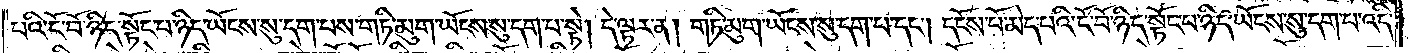པའི་ངོ་བོ་ཉིད་སྟོང་པ་ཉིད་ཡོངས་སུ་དག་པས་གཏི་མུག་ཡོངས་སུ་དག་པ་སྟེ། དེ་ལྟར་ན། གཏི་མུག་ཡོངས་སུ་དག་པ་དང༌། དངོས་པོ་མེད་པའི་ངོ་བོ་ཉིད་སྟོང་པ་ཉིད་ཡོངས་སུ་དག་པ་འདི་
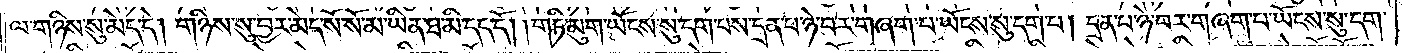ལ་གཉིས་སུ་མེད་དེ། གཉིས་སུ་བྱར་མེད་སོ་སོ་མ་ཡིན་ཐ་མི་དད་དོ། །གཏི་མུག་ཡོངས་སུ་དག་པས་དྲན་པ་ཉེ་བར་གཞག་པ་ཡོངས་སུ་དག་པ། དྲན་པ་ཉེ་བར་གཞག་པ་ཡོངས་སུ་དག་
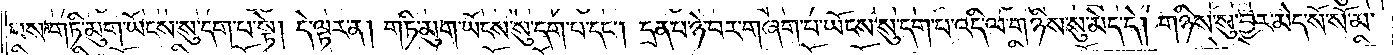པས་གཏི་མུག་ཡོངས་སུ་དག་པ་སྟེ། དེ་ལྟར་ན། གཏི་མུག་ཡོངས་སུ་དག་པ་དང༌། དྲན་པ་ཉེ་བར་གཞག་པ་ཡོངས་སུ་དག་པ་འདི་ལ་གཉིས་སུ་མེད་དེ། གཉིས་སུ་བྱར་མེད་སོ་སོ་མ་
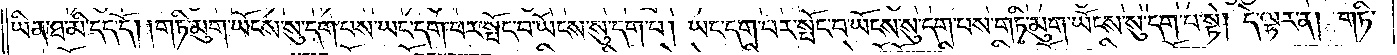ཡིན་ཐ་མི་དད་དོ། །གཏི་མུག་ཡོངས་སུ་དག་པས་ཡང་དག་པར་སྤང་བ་ཡོངས་སུ་དག་པ། ཡང་དག་པར་སྤོང་བ་ཡོངས་སུ་དག་པས་གཏི་མུག་ཡོངས་སུ་དག་པ་སྟེ། དེ་ལྟར་ན། གཏི་
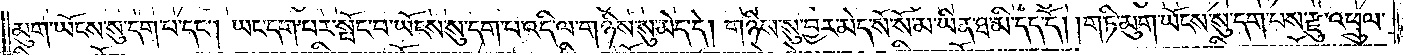མུག་ཡོངས་སུ་དག་པ་དང༌། ཡང་དག་པར་སྤོང་བ་ཡོངས་སུ་དག་པ་འདི་ལ་གཉིས་སུ་མེད་དེ། གཉིས་སུ་བྱར་མེད་སོ་སོ་མ་ཡིན་ཐ་མི་དད་དོ། །གཏི་མུག་ཡོངས་སུ་དག་པས་རྫུ་འཕྲུལ་
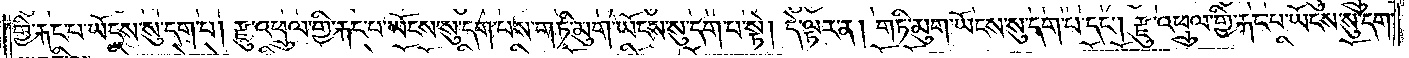གྱི་རྐང་པ་ཡོངས་སུ་དག་པ། རྫུ་འཕྲུལ་གྱི་རྐང་པ་ཡོངས་སུ་དག་པས་གཏི་མུག་ཡོངས་སུ་དག་པ་སྟེ། དེ་ལྟར་ན། གཏི་མུག་ཡོངས་སུ་དག་པ་དང༌། རྫུ་འཕྲུལ་གྱི་རྐང་པ་ཡོངས་སུ་དག་
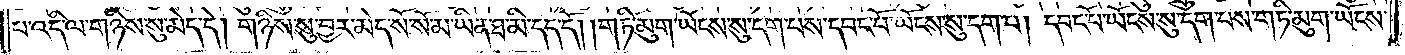པ་འདི་ལ་གཉིས་སུ་མེད་དེ། གཉིས་སུ་བྱར་མེད་སོ་སོ་མ་ཡིན་ཐ་མི་དད་དོ། །གཏི་མུག་ཡོངས་སུ་དག་པས་དབང་པོ་ཡོངས་སུ་དག་པ། དབང་པོ་ཡོངས་སུ་དག་པས་གཏི་མུག་ཡོངས་
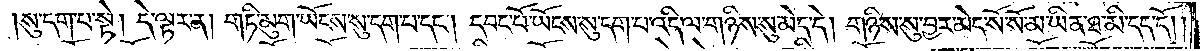སུ་དག་པ་སྟེ། དེ་ལྟར་ན། གཏི་མུག་ཡོངས་སུ་དག་པ་དང༌། དབང་པོ་ཡོངས་སུ་དག་པ་འདི་ལ་གཉིས་སུ་མེད་དེ། གཉིས་སུ་བྱར་མེད་སོ་སོ་མ་ཡིན་ཐ་མི་དད་དོ། །
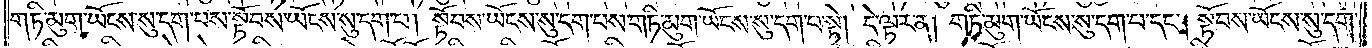གཏི་མུག་ཡོངས་སུ་དག་པས་སྟོབས་ཡོངས་སུ་དག་པ། སྟོབས་ཡོངས་སུ་དག་པས་གཏི་མུག་ཡོངས་སུ་དག་པ་སྟེ། དེ་ལྟར་ན། གཏི་མུག་ཡོངས་སུ་དག་པ་དང༌། སྟོབས་ཡོངས་སུ་དག་
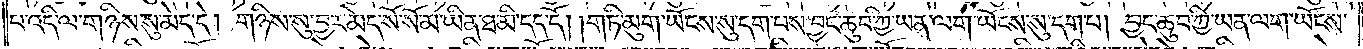པ་འདི་ལ་གཉིས་སུ་མེད་དེ། གཉིས་སུ་བྱར་མེད་སོ་སོ་མ་ཡིན་ཐ་མི་དད་དོ། །གཏི་མུག་ཡོངས་སུ་དག་པས་བྱང་ཆུབ་ཀྱི་ཡན་ལག་ཡོངས་སུ་དག་པ། བྱང་ཆུབ་ཀྱི་ཡན་ལག་ཡོངས་
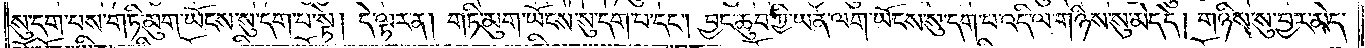སུ་དག་པས་གཏི་མུག་ཡོངས་སུ་དག་པ་སྟེ། དེ་ལྟར་ན། གཏི་མུག་ཡོངས་སུ་དག་པ་དང༌། བྱང་ཆུབ་ཀྱི་ཡན་ལག་ཡོངས་སུ་དག་པ་འདི་ལ་གཉིས་སུ་མེད་དེ། གཉིས་སུ་བྱར་མེད་
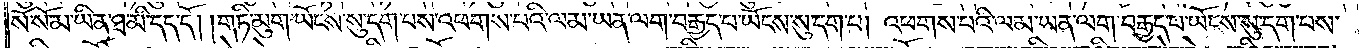སོ་སོ་མ་ཡིན་ཐ་མི་དད་དོ། །གཏི་མུག་ཡོངས་སུ་དག་པས་འཕགས་པའི་ལམ་ཡན་ལག་བརྒྱད་པ་ཡོངས་སུ་དག་པ། འཕགས་པའི་ལམ་ཡན་ལག་བརྒྱད་པ་ཡོངས་སུ་དག་པས་
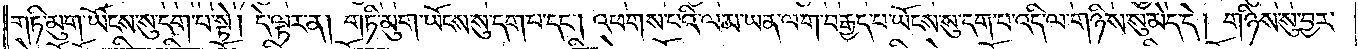གཏི་མུག་ཡོངས་སུ་དག་པ་སྟེ། དེ་ལྟར་ན། གཏི་མུག་ཡོངས་སུ་དག་པ་དང༌། འཕགས་པའི་ལམ་ཡན་ལག་བརྒྱད་པ་ཡོངས་སུ་དག་པ་འདི་ལ་གཉིས་སུ་མེད་དེ། གཉིས་སུ་བྱར་
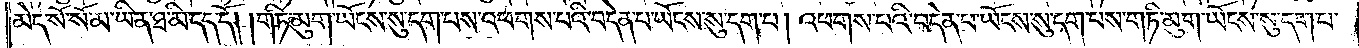མེད་སོ་སོ་མ་ཡིན་ཐ་མི་དད་དོ། །གཏི་མུག་ཡོངས་སུ་དག་པས་འཕགས་པའི་བདེན་པ་ཡོངས་སུ་དག་པ། འཕགས་པའི་བདེན་པ་ཡོངས་སུ་དག་པས་གཏི་མུག་ཡོངས་སུ་དག་པ་
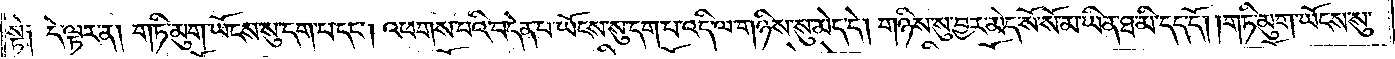སྟེ༑ དེ་ལྟར་ན། གཏི་མུག་ཡོངས་སུ་དག་པ་དང༌། འཕགས་པའི་བདེན་པ་ཡོངས་སུ་དག་པ་འདི་ལ་གཉིས་སུ་མེད་དེ། གཉིས་སུ་བྱར་མེད་སོ་སོ་མ་ཡིན་ཐ་མི་དད་དོ། །གཏི་མུག་ཡོངས་སུ་
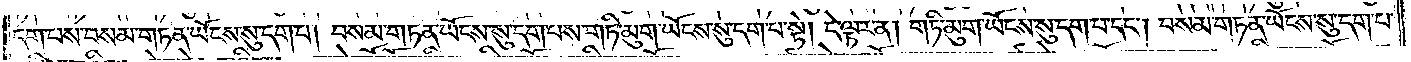དག་པས་བསམ་གཏན་ཡོངས་སུ་དག་པ། བསམ་གཏན་ཡོངས་སུ་དག་པས་གཏི་མུག་ཡོངས་སུ་དག་པ་སྟེ། དེ་ལྟར་ན། གཏི་མུག་ཡོངས་སུ་དག་པ་དང༌། བསམ་གཏན་ཡོངས་སུ་དག་པ་
